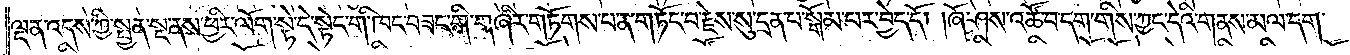ལྡན་འདས་ཀྱི་སྤྱན་སྔ་ནས་ཕྱིར་ལོག་སྟེ་དེ་སྟེང་གི་ཁང་བཟང་གི་གཞིར་གཏོགས་པ་ན་གཏོང་བ་རྗེས་སུ་དྲན་པ་སྒོམ་པར་བྱེད་དོ། །ཞོ་ཤས་འཚོ་བ་དག་གིས་ཀྱང་དེའི་གནས་མལ་དག་
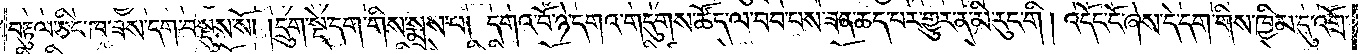བརྟུལ་ཅིང་ཁ་ཟས་དག་བསྡུས་སོ། །དྲུག་སྡེ་དག་གིས་སྨྲས་པ། དགའ་བོ་ཉེ་དགའ་གདུགས་ཚོད་ལ་བབ་པས་ཟན་ཆད་པར་གྱུར་ན་མི་རུང་གི། འདོང་ངོ་ཞེས་དེ་དག་གིས་ཁྱིམ་དུ་འགྲོ་
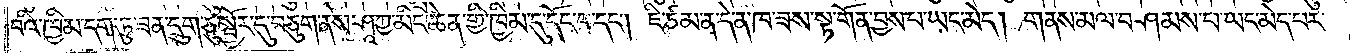བའི་ཁྱིམ་དག་ཏུ་ཟན་དྲུག་ཅུ་སྦྱོར་དུ་བཅུག་ནས་ཤཱཀྱ་མིང་ཆེན་གྱི་ཁྱིམ་དུ་དོང་བ་དང༌། ཇི་ཙམ་ན་དེ་ན་ཁ་ཟས་སྟ་གོན་བྱས་པ་ཡང་མེད། གནས་མལ་བཤམས་པ་ཡང་མེད་པར་
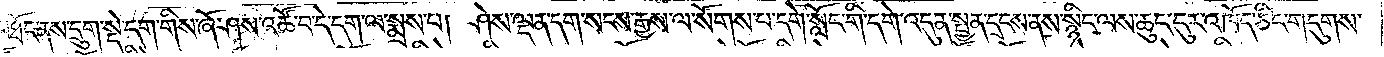མཐོང་ནས་དྲུག་སྡེ་དག་གིས་ཞོ་ཤས་འཚོ་བ་དེ་དག་ལ་སྨྲས་པ། ཤེས་ལྡན་དག་སངས་རྒྱས་ལ་སོགས་པ་དགེ་སློང་གི་དགེ་འདུན་སྤྱན་དྲངས་ནས་སྙིང་ལས་ཆུང་དུར་འཁོད་ཅིང་གདུགས་
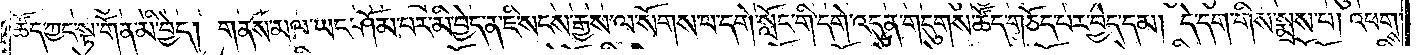ཚོད་ཀྱང་སྟ་གོན་མི་བྱེད། གནས་མལ་ཡང་ཤོམ་པར་མི་བྱེད་ན་ཇི་སངས་རྒྱས་ལ་སོགས་པ་དགེ་སློང་གི་དགེ་འདུན་གདུགས་ཚོད་གཅོད་པར་བྱེད་དམ། དེ་དག་གིས་སྨྲས་པ། འཕགས་
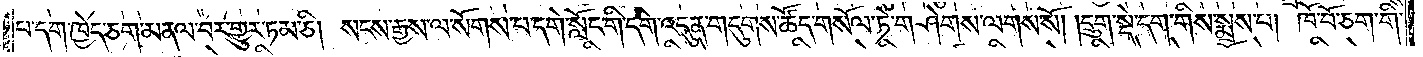པ་དག་ཁྱེད་ཅག་མནལ་བར་གྱུར་ཏམ་ཅི། སངས་རྒྱས་ལ་སོགས་པ་དགེ་སློང་གི་དགེ་འདུན་གདུགས་ཚོད་གསོལ་ཏེ་གཤེགས་ལགས་སོ། །དྲུག་སྡེ་དག་གིས་སྨྲས་པ། ཁོ་བོ་ཅག་གི་
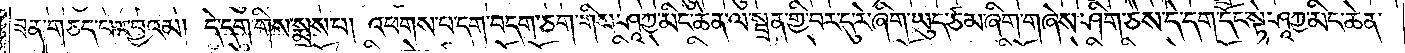ཟན་གཅད་པར་བྱའམ། དེ་དག་གིས་སྨྲས་པ། འཕགས་པ་དག་བདག་ཅག་གིས་ཤཱཀྱ་མིང་ཆེན་ལ་སྦྲན་གྱི་བར་དུ་རེ་ཞིག་ཡུད་ཙམ་ཞིག་གཞེས་ཤིག་ཅེས་དེ་དག་དོང་སྟེ་ཤཱཀྱ་མིང་ཆེན་
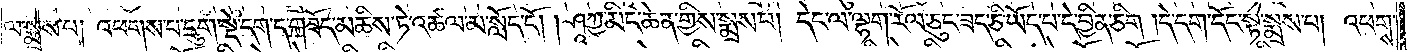ལ་སྨྲས་པ། འཕགས་པ་དྲུག་སྡེ་དག་ད་གཟོད་མཆིས་ཏེ་འཚལ་མ་སློད་ངོ༌། །ཤཱཀྱ་མིང་ཆེན་གྱིས་སྨྲས་པ། དེང་ལ་ལྷག་རོལ་ཅུང་ཟད་ཅི་ཡོད་པ་དེ་བྱིན་ཅིག །དེ་དག་དོང་སྟེ་སྨྲས་པ། འཕགས་
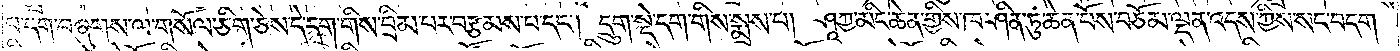པ་དག་བཞུགས་ལ་གསོལ་ཅིག་ཅེས་དེ་དག་གིས་བྲིམ་པར་བརྩམས་པ་དང༌། དྲུག་སྡེ་དག་གིས་སྨྲས་པ། ཤཱཀྱ་མིང་ཆེན་གྱིས་ཁ་ཤིན་ཏུ་ཆེན་པོས་བཅོམ་ལྡན་འདས་ཀྱིས་སང་བདག་
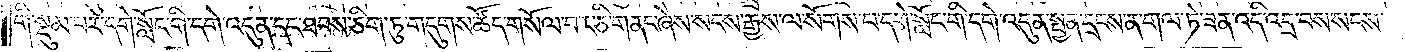གི་སྡུམ་པར་དགེ་སློང་གི་དགེ་འདུན་དང་ཐབས་ཅིག་ཏུ་གདུགས་ཚོད་གསོལ་བར་ཅི་གནང་ཞེས་སངས་རྒྱས་ལ་སོགས་པ་དགེ་སློང་གི་དགེ་འདུན་སྤྱན་དྲངས་ན་གལ་ཏེ་ཟན་འདི་འདྲ་བས་སངས་
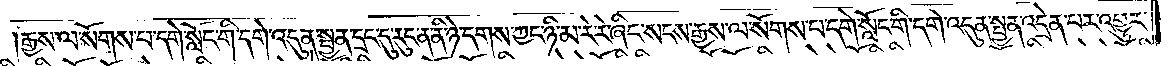རྒྱས་ལ་སོགས་པ་དགེ་སློང་གི་དགེ་འདུན་སྤྱན་དྲང་དུ་རུང་ན་ནི་ཉེ་དགས་ཀྱང་ཉི་མ་རེ་རེ་ཞིང་སངས་རྒྱས་ལ་སོགས་པ་དགེ་སློང་གི་དགེ་འདུན་སྤྱན་འདྲེན་པར་འགྱུར་
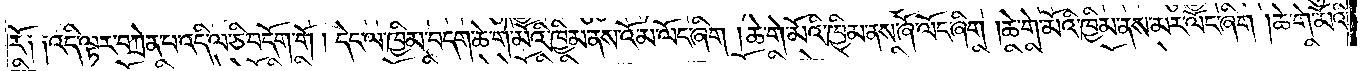རོ༑ ༑འདི་ལྟར་བཀྲེན་པ་འདི་ལ་ཅི་བདོག་གོ །དེང་ལ་ཁྱིམ་བདག་ཆེ་གེ་མོའི་ཁྱིམ་ནས་འོ་མ་ལོང་ཞིག །ཆེ་གེ་མོའི་ཁྱིམ་ནས་ཞོ་ལོང་ཞིག །ཆེ་གེ་མོའི་ཁྱིམ་ནས་མར་ལོང་ཞིག །ཆེ་གེ་མོའི་
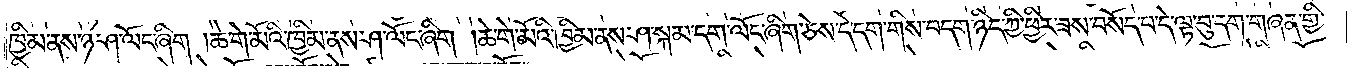ཁྱིམ་ནས་ཉ་ཤ་ལོང་ཞིག །ཆེ་གེ་མོའི་ཁྱིམ་ནས་ཤ་ལོང་ཞིག །ཆེ་གེ་མོའི་ཁྱིམ་ནས་ཤ་སྐམ་དག་ལོང་ཞིག་ཅེས་དེ་དག་གིས་བདག་ཉིད་ཀྱི་ཕྱིར་ཟས་བསོད་པ་དེ་ལྟ་བུ་དག་གཞན་གྱི་
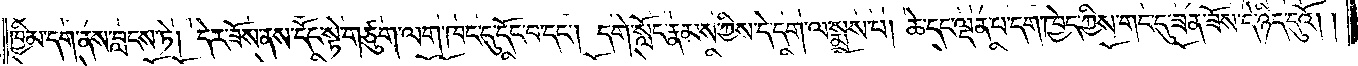ཁྱིམ་དག་ནས་བླངས་ཏེ། དེར་ཟོས་ནས་དོང་སྟེ་གཙུག་ལག་ཁང་དུ་དོང་བ་དང༌། དགེ་སློང་རྣམས་ཀྱིས་དེ་དག་ལ་སྨྲས་པ། ཚེ་དང་ལྡན་པ་དག་ཁྱེད་ཀྱིས་གང་དུ་ཟན་ཟོས་དེ་ཉིད་དུའོ། །
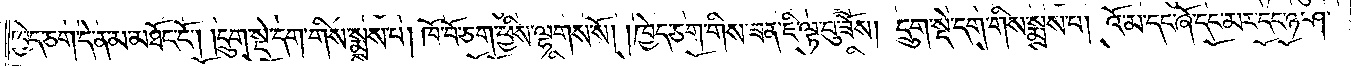ཁྱེད་ཅག་དེ་ན་མ་མཐོང་ངོ༌། །དྲུག་སྡེ་དག་གིས་སྨྲས་པ། ཁོ་བོ་ཅག་ཕྱིས་ལྷགས་སོ། །ཁྱེད་ཅག་གིས་ཟན་ཇི་ལྟ་བུ་ཟོས། དྲུག་སྡེ་དག་གིས་སྨྲས་པ། འོ་མ་དང་ཞོ་དང་མར་དང་ཉ་ཤ་
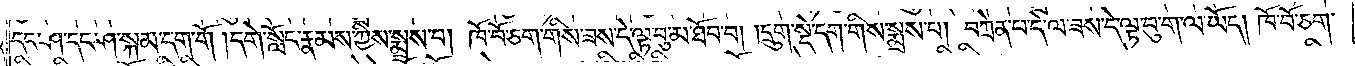དང་ཤ་དང་ཤ་སྐམ་དག་གོ །དགེ་སློང་རྣམས་ཀྱིས་སྨྲས་པ། ཁོ་བོ་ཅག་གིས་ཟས་དེ་ལྟ་བུ་མ་ཐོབ་པ། །དྲུག་སྡེ་དག་གིས་སྨྲས་པ། བཀྲེན་པ་དེ་ལ་ཟས་དེ་ལྟ་བུ་ག་ལ་ཡོད། ཁོ་བོ་ཅག་
